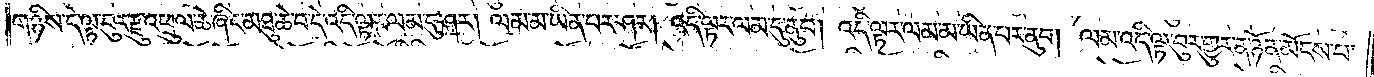གཉིས་དེ་ལྟ་བུར་རྫུ་འཕྲུལ་ཆེ་ཞིང་མཐུ་ཆེ་བདེ་འདི་ལྟར་ལམ་དུ་ཤར། ལམ་མ་ཡིན་པར་ཤར། འདི་ལྟར་ལམ་དུ་ནུབ། འདི་ལྟར་ལམ་མ་ཡིན་པར་ནུབ། ལམ་འདི་ལྟ་བུར་གྱུར་ན་ཉོན་མོངས་པ་
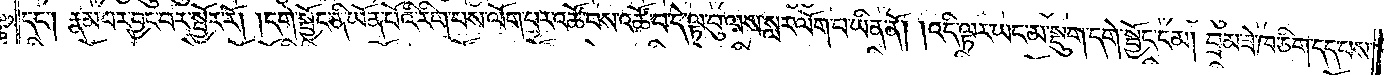དང༌། རྣམ་པར་བྱང་བར་སྦྱོར་རོ། །དགེ་སྦྱོང་ནི་ཡོན་པོའི་རིག་པས་ལོག་པར་འཚོ་བས་འཚོ་བ་དེ་ལྟ་བུ་ལས་སླར་ལོག་པ་ཡིན་ནོ། །འདི་ལྟར་ཡང་མ་སྡུག་དགེ་སྦྱོང་ངམ། བྲམ་ཟེ་ཁ་ཅིག་དད་པས་
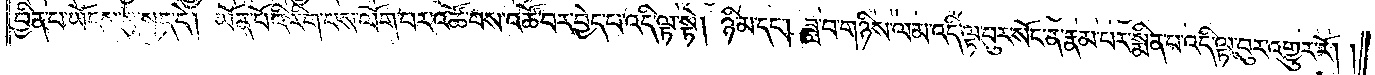བྱིན་པ་ཡོངས་སུ་སྤྱད་དེ། ཡོན་པོའི་རིག་པས་ལོག་པར་འཚོ་བས་འཚོ་བར་བྱེད་པ་འདི་ལྟ་སྟེ། ཉི་མ་དང༌། ཟླ་བ་གཉིས་ལམ་འདི་ལྟ་བུར་སོང་ན་རྣམ་པར་སྨིན་པ་འདི་ལྟ་བུར་འགྱུར་རོ། །
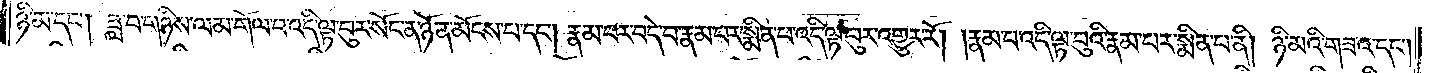ཉི་མ་དང༌། ཟླ་བ་གཉིས་ལམ་གོལ་བ་འདི་ལྟ་བུར་སོང་ན་ཉོན་མོངས་པ་དང༌། རྣམ་པར་བདེ་བ་རྣམ་པར་སྨིན་པ་འདི་ལྟ་བུར་འགྱུར་རོ། །རྣམ་པ་འདི་ལྟ་བུའི་རྣམ་པར་སྨིན་པ་ནི། ཉི་མའི་གཟའ་དང༌།
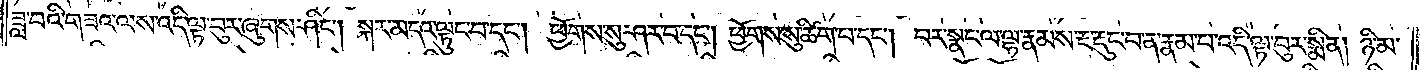ཟླ་བའི་གཟའ་ལས་འདི་ལྟ་བུར་ཞུགས་ཤིང༌། སྐར་མདའ་ལྟུང་བ་དང༌། ཕྱོགས་སུ་ཤར་བ་དང༌། ཕྱོགས་སུ་ཚིག་པ་དང༌། བར་སྣང་ལ་ལྷ་རྣམས་རྔ་རྡུང་བ་ན་རྣམ་པ་འདི་ལྟ་བུར་སྨིན། ཉི་མ་
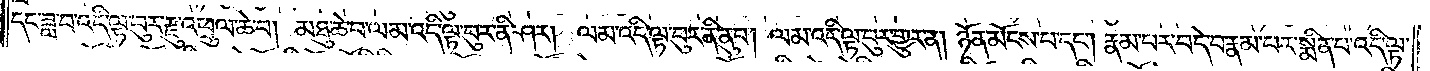དང་ཟླ་བ་འདི་ལྟ་བུར་རྫུ་འཕྲུལ་ཆེ་བ། མཐུ་ཆེ་བ་ལམ་འདི་ལྟ་བུར་ནི་ཤར། ལམ་འདི་ལྟ་བུར་ནི་ནུབ། ལམ་འདི་ལྟ་བུར་གྱུར་ན། ཉོན་མོངས་པ་དང༌། རྣམ་པར་བདེ་བ་རྣམ་པར་སྨིན་པ་འདི་ལྟ་
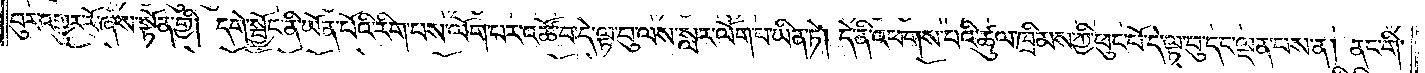བུར་འགྱུར་རོ་ཞེས་སྟོན་གྱི། དགེ་སྦྱོང་ནི་ཡོན་པོའི་རིག་པས་ལོག་པར་འཚོ་བ་དེ་ལྟ་བུ་ལས་སླར་ལོག་པ་ཡིན་ཏེ། དེ་ནི་འཕགས་པའི་ཚུལ་ཁྲིམས་ཀྱི་ཕུང་པོ་དེ་ལྟ་བུ་དང་ལྡན་པས་ན། ནང་གི་
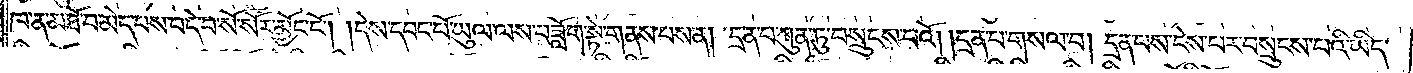ཁ་ན་མཐོ་བ་མེད་པས་བདེ་བ་སོ་སོར་མྱོང་ངོ༌། །དེས་དབང་པོ་ཡུལ་ལས་བཟློག་སྟེ་གནས་པས་ན། དྲན་པ་ཀུན་ཏུ་བསྲུངས་པའོ། །དྲན་པ་གསལ་བ། དྲན་པས་ངེས་པར་བསྲུངས་པའི་ཡིད་
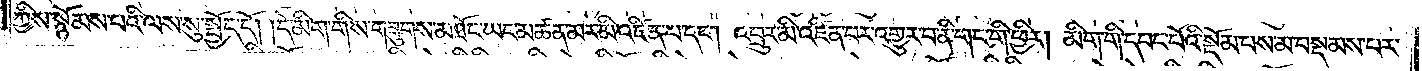ཀྱིས་སྙོམས་པའི་ལས་སུ་སྤྱོད་དོ། །དེ་མིག་གིས་གཟུགས་མཐོང་ཡང་མཚན་མར་མི་འཛིན་པ་དང༌། འབྲུར་མི་འཛིན་པར་འགྱུར་བ་ནི་གང་གི་ཕྱིར། མིག་གི་དབང་པོའི་སྡོམ་བས་མ་བསྡམས་པར་
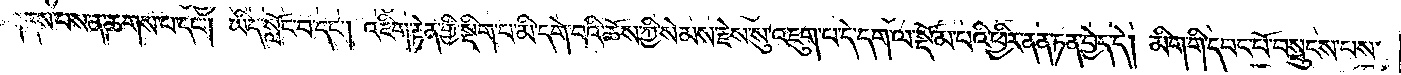གནས་བས་ན་ཆགས་པ་དང༌། ཡིད་སློང་བ་དང༌། འཇིག་རྟེན་གྱི་སྡིག་པ་མི་དགེ་བའི་ཆོས་ཀྱི་སེམས་རྗེས་སུ་འཇུག་པ་དེ་དག་ལ་སྡོམ་པའི་ཕྱིར་ནན་ཏན་བྱེད་དེ། མིག་གི་དབང་པོ་བསྲུངས་པས་
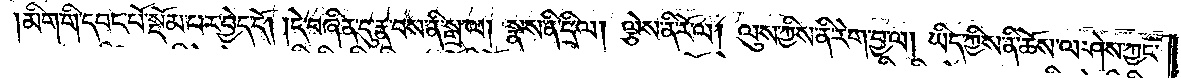མིག་གི་དབང་པོ་སྡོམ་པར་བྱེད་དོ། །དེ་བཞིན་དུ་རྣ་བས་ནི་སྒྲ་ལ། སྣས་ནི་དྲི་ལ། ལྕེས་ནི་རོལ། ལུས་ཀྱིས་ནི་རེག་བྱ་ལ། ཡིད་ཀྱིས་ནི་ཆོས་ལ་ཤེས་ཀྱང་
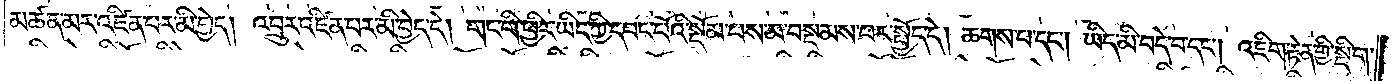མཚན་མར་འཛིན་པར་མི་བྱེད། འབྲུར་འཛིན་པར་མི་བྱེད་དེ། གང་གི་ཕྱིར་ཡིད་ཀྱི་དབང་པོའི་སྡོམ་པས་མ་བསྡམས་པར་སྤྱོད་དེ། ཆགས་པ་དང༌། ཡིད་མི་བདེ་བ་དང༌། འཇིག་རྟེན་གྱི་སྡིག་
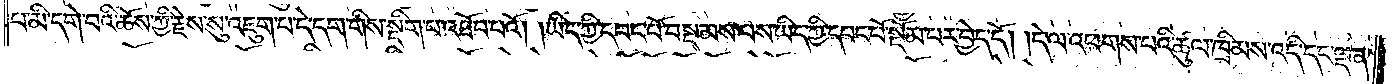པ་མི་དགེ་བའི་ཆོས་ཀྱི་རྗེས་སུ་འཇུག་པ་དེ་དག་གིས་སྡིག་པ་འཐོབ་པའོ། །ཡིད་ཀྱི་དབང་པོ་བསྡམས་པས་ཡིད་ཀྱི་དབང་པོ་སྡོམ་པར་བྱེད་དོ། །དེ་ལ་འཕགས་པའི་ཚུལ་ཁྲིམས་འདི་དང་ལྡན་
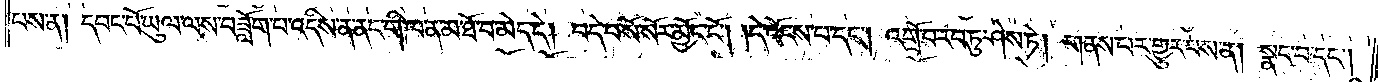པས་ན། དབང་པོ་ཡུལ་ལས་བཟློག་པ་འདིས་ན་ནང་གི་ཁ་ན་མ་ཐོ་བ་མེད་དེ། བདེ་བ་སོ་སོར་མྱོང་ངོ༌། །དེ་འོངས་པ་དང༌། འགྲོ་བ་རབ་ཏུ་ཤེས་ཏེ། གནས་པར་གྱུར་པས་ན། སྣང་བ་དང༌།
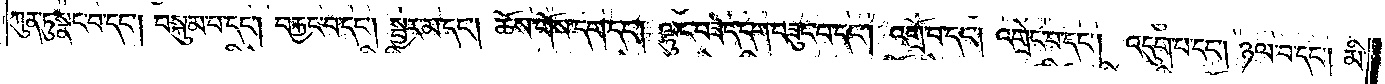ཀུན་ཏུ་སྣང་བ་དང༌། བསྐུམ་པ་དང༌། བརྐྱང་བ་དང༌། སྦྱར་མ་དང༌། ཆོས་གོས་དག་དང༌། ལྷུང་བཟེད་དག་བཟུང་བ་དང༌། འགྲོ་བ་དང༌། འགྲེང་བ་དང༌། འདུག་པ་དང༌། ཉལ་བ་དང༌། མི་
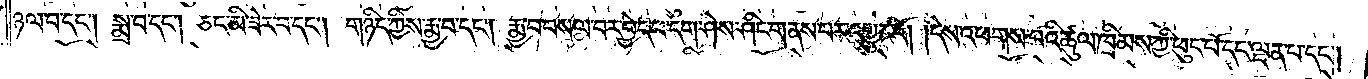ཉལ་བ་དང༌། སྨྲ་བ་དང༌། ཅང་མི་ཟེར་བ་དང༌། གཉིད་ཀྱིས་རྨྱ་བ་དང༌། རྨྱ་བ་བསལ་བར་བྱེད་པ་དག་ཤེས་ཤིང་གནས་པར་འགྱུར་རོ། །དེས་འཕགས་པའི་ཚུལ་ཁྲིམས་ཀྱི་ཕུང་པོ་དང་ལྡན་པ་དང༌།
